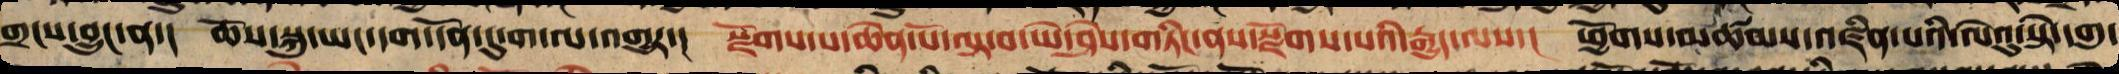གྲངས་བྱུང་ན་། ཆོས་སྐུ་ཡང་དག་དོན་དུ་ག་ལ་འགྱུར་། སྫོགས་པ་ཆེན་པོ་ལྟ་བ་ཡེ་ཤེས་གཏིང་ནས་སྫོགས་པའི་རྒྱུད་ལས་། ཕྱོགས་མཚམས་འཛིན་པའི་ལེའུ་སྟེ་དགུ་
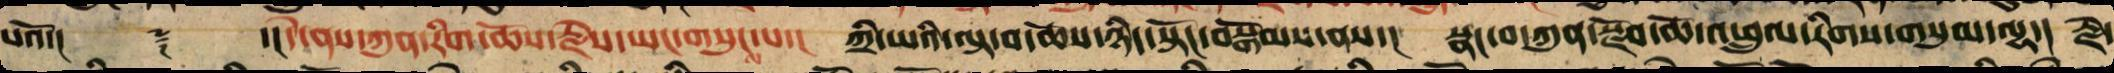པའོ་།། ༈ ་།།དེ་ནས་ཀུན་རིག་ཆོས་རྗེས་ཡང་གསུངས་པ་། ཀྲི་ཡའི་བལྟ་བ་ཆོས་ཉིད་སྟོང་བསྒོམ་ནས་། སྣང་བ་ཀུན་སྫོབ་ཆོ་འཕྲུལ་རིགས་གསུམ་ལྷ་། རྗེ་
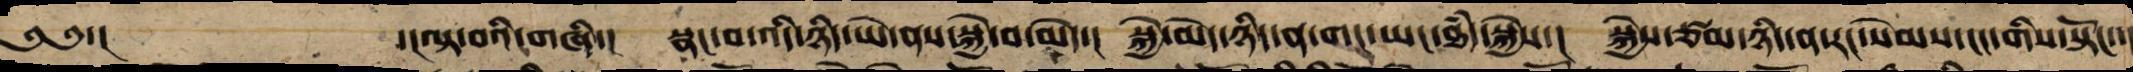༄༅་། ་།ལྟ་བའི་གཞི་། སྣང་བ་འདི་ཉིད་ཡེ་ནས་སྐྱེ་བ་མེད་། སྐྱེ་མེད་ཉིད་ན་གང་ཡང་ཐཾད་སྐྱེས་། སྐྱེས་ཙམ་ཉིད་ན་རང་སེམས་ངང་གིས་སྟོང་།
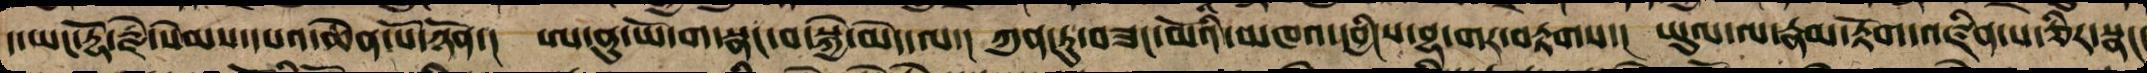ད་ཡང་རྡོ་རྗེ་སེམས་དཔའ་ཆེན་པོ་ཉོན་། ཨ་ནུ་ཡོ་ག་སྣང་བ་སྐྱེ་མེད་ལ་། ཀུན་ཏུ་བཟང་མོའི་མཁའ་དབྱིངས་བྷ་གར་བརྟགས་། ཡུལ་ལ་རྣམ་རྟོག་འཛིན་པ་ཅིར་སྣང་
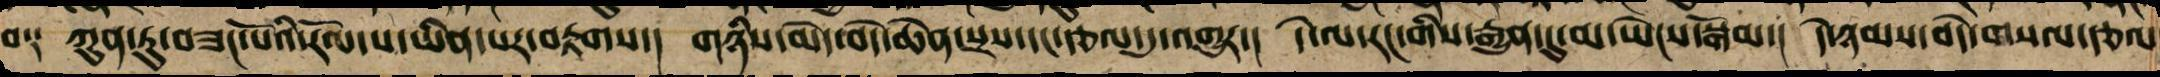བ༑ ཀུན་ཏུ་བཟང་པོའི་རོལ་པ་ཡིན་པར་བརྟགས་། གཉིས་མེད་བདེ་ཆེན་སྲས་དང་རྩལ་དུ་འགྱུར་། དེ་ལ་རང་གིས་རྒྱུན་དུ་མ་ཡེངས་བསྒོམ་། དེ་ཉམས་བདེ་གསལ་རྩལ་
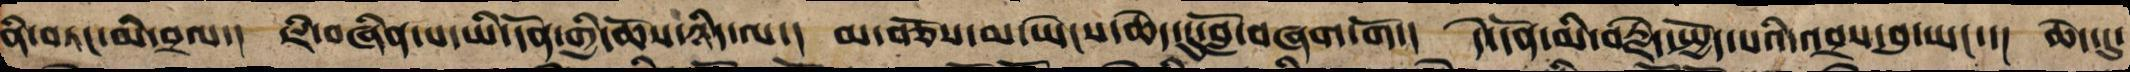ནི་བཏང་མི་བྲལ་། ཇི་བཞིན་པ་ཡི་དོན་གྱི་ཆོས་ཉིད་ལ་། མ་བཅོས་མ་ཡེངས་ཆེད་དུ་བློ་བཞག་གོ་། དེ་དོན་མི་བརྗེད་སྤྱོད་པའི་འབྲས་བུ་ཡང་། ཆེད་དུ་
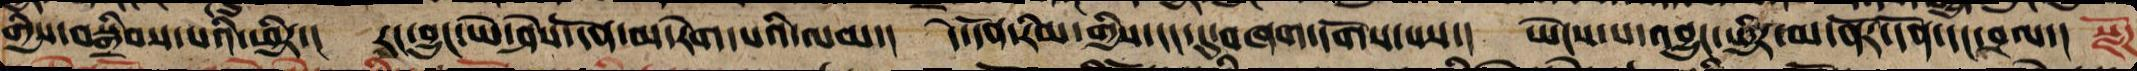གྱིས་བསྒྲིབས་པའི་ཕྱིར་། རང་བྱུང་ཡེ་ཤེས་དོན་མ་རིག་པའི་ལམ་། དེ་དོན་རིམ་གྱིས་དད་དུ་བཞག་དགོས་པས་། ཡེངས་པ་འབྱུང་ཕྱིར་མ་ནོར་དོན་དང་བྲལ་། སྫོཌ
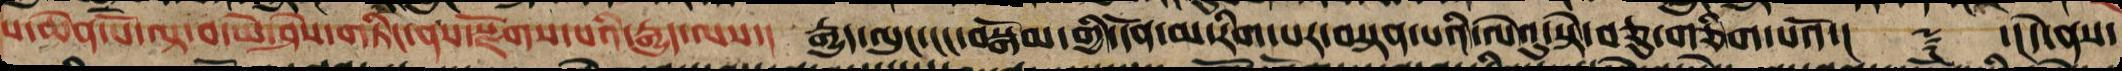པ་ཆེན་པོ་ལྟ་བ་ཡེ་ཤེས་གཏིང་ནས་སྫོགས་པའི་རྒྱུད་ལས་། རྒྱུད་ལུང་དང་བསྒོམ་གྱིས་དོན་མ་རིག་པར་བསྟན་པའི་ལེའུ་སྟེ་བཅུ་གཅིག་པའོ་།། ༈ ་།དེ་ནས་
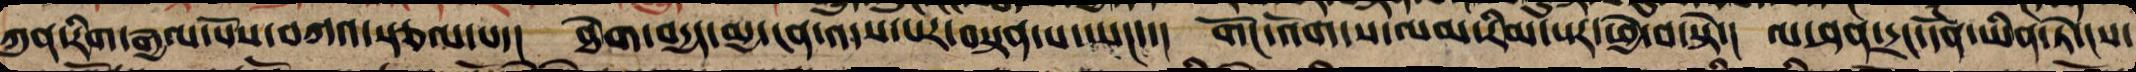ཀུན་རིག་རྒྱལ་པོས་བཀའ་སྩལ་པ་། ཐེག་བདྱད་མྱ་ངན་འདས་པར་བསྟན་པ་ཡང་་། གོང་འོག་ས་ལམ་རིམ་པར་ཕྱེ་བ་སྟེ་། ལ་ཤན་དྲང་དོན་ཡིན་ཏེ་ངས་
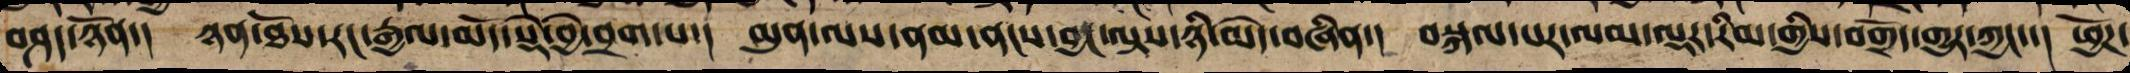བཤད་ཉོན་། ཉན་ཐོས་རང་རྒྱལ་མདོ་སྡེ་བྱེ་བྲག་པ་། མུན་ལས་ནམ་ནངས་བྱང་ལྟས་ཉི་མེད་བཞིན་། བསྐལ་པར་ལམ་ལྔར་རིམ་གྱིས་བགྲོད་གྱུར་ཀྱང་། ཕྱོཌ་
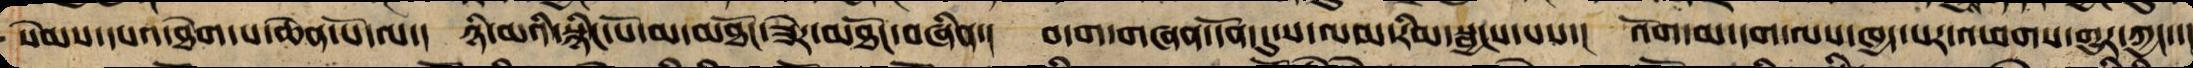སེམས་དཔའི་ཐེག་པ་ཆེན་པོ་ལ་། ཉི་མའི་སྙིང་པོ་མ་མཐོང་ཟེར་མཐོང་བཞིན་། བདག་གཞན་དོན་དུ་ས་ལམ་རིམ་སྦྱངས་པས།་ འོག་མ་དག་ལས་ཁྱད་པར་འཕགས་གྱུར་ཀྱང་་།
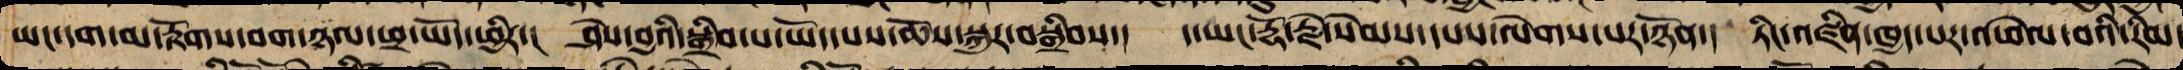ཡང་དག་མ་རྟོགས་བག་ཉལ་ཕྲ་ཡོད་ཕྱིར་། ཤེས་བྱའི་སྒྲིབ་པ་ཡོད་པས་ཆོས་སྐུར་བསྒྲིབས་། ད་ཡང་རྡོ་རྗོ་སེམས་དཔའ་ལེགས་པར་ཉོན་། ཏིང་འཛིན་ཁྱད་པར་འཕེལ་བའི་རིམ་
